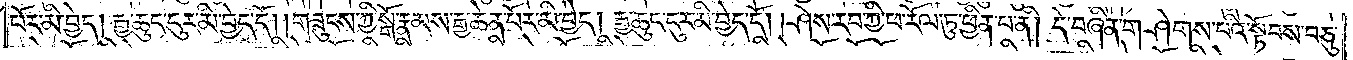པོར་མི་བྱེད། རྒྱ་ཆུང་ངུར་མི་བྱེད་དོ། །གཟུངས་ཀྱི་སྒོ་རྣམས་རྒྱ་ཆེན་པོར་མི་བྱེད། རྒྱ་ཆུང་ངུར་མི་བྱེད་དོ། །ཤེས་རབ་ཀྱི་ཕ་རོལ་ཏུ་ཕྱིན་པ་ནི། དེ་བཞིན་གཤེགས་པའི་སྟོབས་བཅུ་
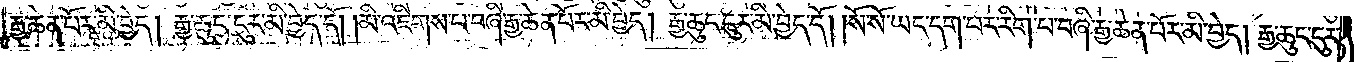རྒྱ་ཆེན་པོར་མི་བྱེད། རྒྱ་ཆུང་ངུར་མི་བྱེད་དོ། །མི་འཇིགས་པ་བཞི་རྒྱ་ཆེན་པོར་མི་བྱེད། རྒྱ་ཆུང་ངུར་མི་བྱེད་དོ། །སོ་སོ་ཡང་དག་པར་རིག་པ་བཞི་རྒྱ་ཆེན་པོར་མི་བྱེད། རྒྱ་ཆུང་ངུར་
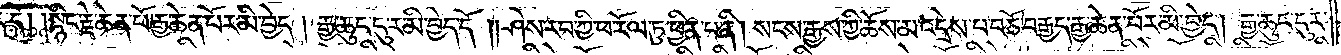མི་བྱེད་དོ། །སྙིང་རྗེ་ཆེན་པོ་རྒྱ་ཆེན་པོར་མི་བྱེད། རྒྱ་ཆུང་ངུར་མི་བྱེད་དོ། །ཤེས་རབ་ཀྱི་ཕ་རོལ་ཏུ་ཕྱིན་པ་ནི། སངས་རྒྱས་ཀྱི་ཆོས་མ་འདྲེས་པ་བཅོ་བརྒྱད་རྒྱ་ཆེན་པོར་མི་བྱེད། རྒྱ་ཆུང་ངུར་
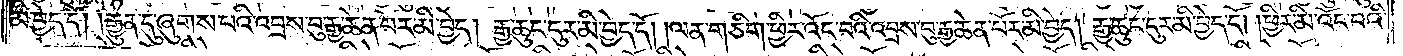མི་བྱེད་དོ། །རྒྱུན་དུ་ཞུགས་པའི་འབྲས་བུ་རྒྱ་ཆེན་པོར་མི་བྱེད། རྒྱ་ཆུང་ངུར་མི་བྱེད་དོ། །ལན་གཅིག་ཕྱིར་འོང་བའི་འབྲས་བུ་རྒྱ་ཆེན་པོར་མི་བྱེད། རྒྱ་ཆུང་ངུར་མི་བྱེད་དོ། །ཕྱིར་མི་འོང་བའི་
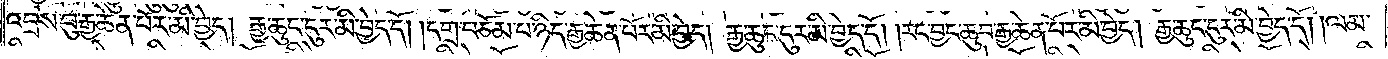འབྲས་བུ་རྒྱ་ཆེན་པོར་མི་བྱེད། རྒྱ་ཆུང་ངུར་མི་བྱེད་དོ། །དགྲ་བཅོམ་པ་ཉིད་རྒྱ་ཆེན་པོར་མི་བྱེད། རྒྱ་ཆུང་ངུར་མི་བྱེད་དོ། །རང་བྱང་ཆུབ་རྒྱ་ཆེན་པོར་མི་བྱེད། རྒྱ་ཆུང་ངུར་མི་བྱེད་དོ། །ལམ་
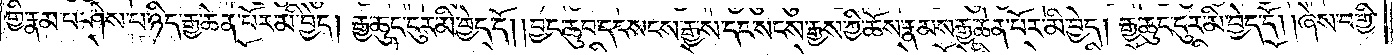གྱི་རྣམ་པ་ཤེས་པ་ཉིད་རྒྱ་ཆེན་པོར་མི་བྱེད། རྒྱ་ཆུང་ངུར་མི་བྱེད་དོ། །བྱང་ཆུབ་དང་སངས་རྒྱས་དང་སངས་རྒྱས་ཀྱི་ཆོས་རྣམས་རྒྱ་ཆེན་པོར་མི་བྱེད། རྒྱ་ཆུང་ངུར་མི་བྱེད་དོ། །ཞེས་བགྱི་
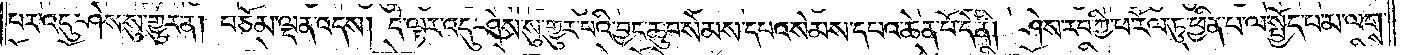བར་འདུ་ཤེས་སུ་གྱུར་ན། བཅོམ་ལྡན་འདས། དེ་ལྟར་འདུ་ཤེས་སུ་གྱུར་པའི་བྱང་ཆུབ་སེམས་དཔའ་སེམས་དཔའ་ཆེན་པོ་དེ་ནི། ཤེས་རབ་ཀྱི་ཕ་རོལ་ཏུ་ཕྱིན་པ་ལ་སྤྱོད་པ་མ་ལགས་
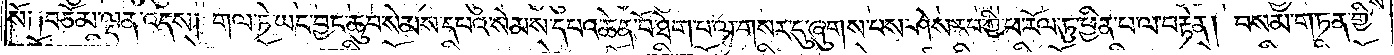སོ༑ ༑བཅོམ་ལྡན་འདས། གལ་ཏེ་ཡང་བྱང་ཆུབ་སེམས་དཔའ་སེམས་དཔའ་ཆེན་པོ་ཐེག་པ་ལ་གསར་དུ་ཞུགས་པས་ཤེས་རབ་ཀྱི་ཕ་རོལ་ཏུ་ཕྱིན་པ་ལ་བརྟེན། བསམ་གཏན་གྱི་
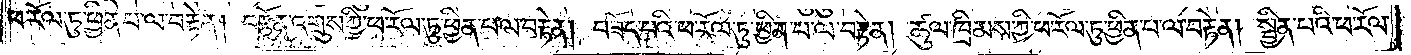ཕ་རོལ་ཏུ་ཕྱིན་པ་ལ་བརྟེན། བརྩོན་འགྲུས་ཀྱི་ཕ་རོལ་ཏུ་ཕྱིན་པ་ལ་བརྟེན། བཟོད་པའི་ཕ་རོལ་ཏུ་ཕྱིན་པ་ལ་བརྟེན། ཚུལ་ཁྲིམས་ཀྱི་ཕ་རོལ་ཏུ་ཕྱིན་པ་ལ་བརྟེན། སྦྱིན་པའི་ཕ་རོལ་
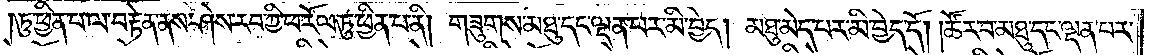ཏུ་ཕྱིན་པ་ལ་བརྟེན་ནས་ཤེས་རབ་ཀྱི་ཕ་རོལ་ཏུ་ཕྱིན་པ་ནི། གཟུགས་མཐུ་དང་ལྡན་པར་མ་བྱེད། མཐུ་མེད་པར་མི་བྱེད་དོ། །ཚོར་བ་མཐུ་དང་ལྡན་པར་
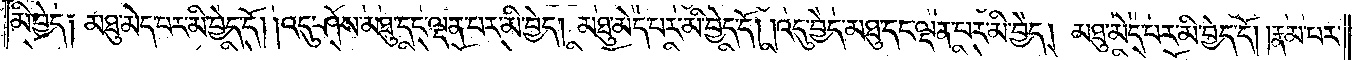མི་བྱེད༑ མཐུ་མེད་པར་མི་བྱེད་དོ། །འདུ་ཤེས་མཐུ་དང་ལྡན་པར་མི་བྱེད། མཐུ་མེད་པར་མི་བྱེད་དོ། །འདུ་བྱེད་མཐུ་དང་ལྡན་པར་མི་བྱེད། མཐུ་མེད་པར་མི་བྱེད་དོ། །རྣམ་པར་
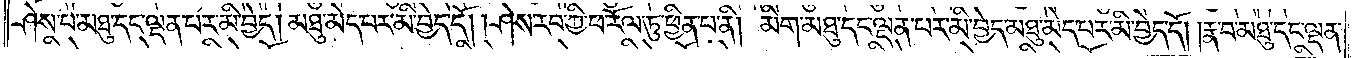ཤེས་པ་མཐུ་དང་ལྡན་པར་མི་བྱེད། མཐུ་མེད་པར་མི་བྱེད་དོ། །ཤེས་རབ་ཀྱི་ཕ་རོལ་ཏུ་ཕྱིན་པ་ནི། མིག་མཐུ་དང་ལྡན་པར་མི་བྱེད་མཐུ་མེད་པར་མི་བྱེད་དོ། །རྣ་བ་མཐུ་དང་ལྡན་
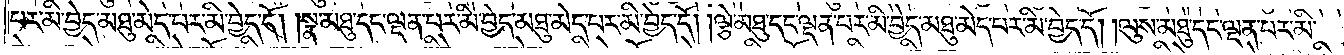པར་མི་བྱེད་མཐུ་མེད་པར་མི་བྱེད་དོ། །སྣ་མཐུ་དང་ལྡན་པར་མི་བྱེད་མཐུ་མེད་པར་མི་བྱེད་དོ། །ལྕེ་མཐུ་དང་ལྡན་པར་མི་བྱེད་མཐུ་མེད་པར་མི་བྱེད་དོ། །ལུས་མཐུ་དང་ལྡན་པར་མི་
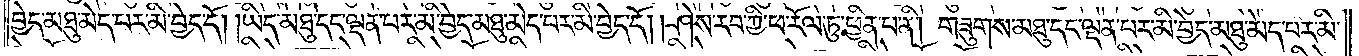བྱེད་མཐུ་མེད་པར་མི་བྱད་དོ། །ཡིད་མཐུ་དང་ལྡན་པར་མི་བྱེད་མཐུ་མེད་པར་མི་བྱེད་དོ། །ཤེས་རབ་ཀྱི་ཕ་རོལ་ཏུ་ཕྱིན་པ་ནི། གཟུགས་མཐུ་དང་ལྡན་པར་མི་བྱེད་མཐུ་མེད་པར་མི་
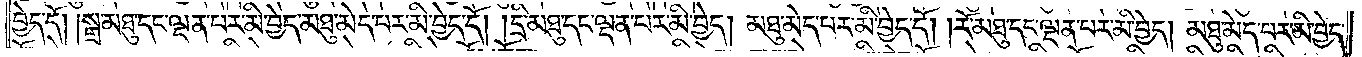བྱེད་དོ། །སྒྲ་མཐུ་དང་ལྡན་པར་མི་བྱེད་མཐུ་མེད་པར་མི་བྱེད་དོ། །དྲི་མཐུ་དང་ལྡན་པར་མི་བྱེད། མཐུ་མེད་པར་མི་བྱེད་དོ། །རོ་མཐུ་དང་ལྡན་པར་མི་བྱེད། མཐུ་མེད་པར་མི་བྱེད་
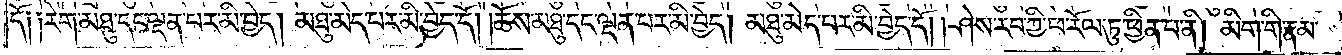དོ༑ ༑རེག་མཐུ་དང་ལྡན་པར་མི་བྱེད། མཐུ་མེད་པར་མི་བྱེད་དོ། །ཆོས་མཐུ་དང་ལྡན་པར་མི་བྱེད། མཐུ་མེད་པར་མི་བྱེད་དོ། །ཤེས་རབ་ཀྱི་ཕ་རོལ་ཏུ་ཕྱིན་པ་ནི། མིག་གི་རྣམ་
